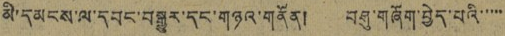མི་དམངས་ལ་དབང་བསྒྱུར་དང་གཉའ་གནོན། བཤུ་གཞོག་བྱེད་པའི་་་་་
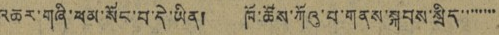འཆར་གཞི་ལམ་སོང་བ་དེ་ཡིན། ཁོ་ཚོས་ཀོའུ་པ་གནས་སྐབས་སྲིད་་་་་་་་
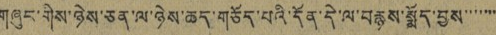གཞུང་གིས་ཉེས་ཅན་ལ་ཉེས་ཆད་གཅོད་པའི་དོན་དེ་ལ་བརྙས་སྨོད་བྱས་་་་་་་
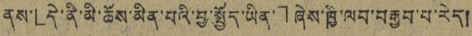ནས་「དེ་ནི་མི་ཆོས་མིན་པའི་བྱ་སྤྱོད་ཡིན་」ཞེས་ཁྱི་ལབ་བརྒྱབ་བ་རེད།
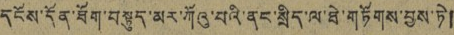དངོས་དོན་ཐོག་བསྟུད་མར་ཀོའུ་པའི་ནང་སྲིད་ལ་ཐེ་གཏོགས་བྱས་ཏེ།
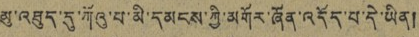མུ་འཐུད་དུ་ཀོའུ་པ་མི་དམངས་ཀྱི་མགོར་ཞོན་འདོད་པ་དེ་ཡིན།
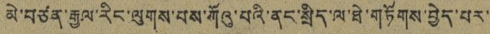མེ་བཙན་རྒྱལ་རིང་ལུགས་པས་ཀོའུ་པའི་ནང་སྲིད་ལ་ཐེ་གཏོགས་བྱེད་པར་
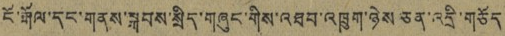ངོ་རྒོལ་དང་གནས་སྐབས་སྲིད་གཞུང་གིས་འཐབ་འཁྲུག་ཉེས ཅན་འདྲི་གཅོད
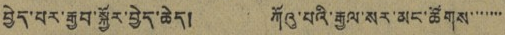བྱེད་པར་རྒྱབ་སྐྱོར་བྱེད་ཆེད། ཀོའུ་པའི་རྒྱལ་སར་མང་ཚོགས་་་་་་་
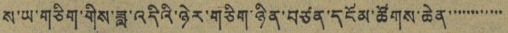ས་ཡ་གཅིག་གིས་ཟླ་འདིའི་ཉེར་གཅིག་ཉིན་བཙན་དངོམ་ཚོགས་ཆེན་་་་་་་་་་་་
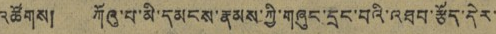འཚོགས། ཀོའུ་པ་མི་དམངས་རྣམས་ཀྱི་གཞུང་དྲང་པའི་འཐབ་རྩོད་དེར་
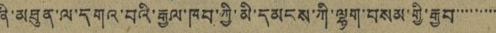ཞི་མཐུན་ལ་དགའ་བའི་རྒྱལ་ཁབ་ཀྱི་མི་དམངས་ཀྱི་ལྷག་བསམ་གྱི་རྒྱབ་་་་་་་་་
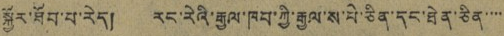སྐྱོར་ཐོབ་པ་རེད། རང་རེའི་རྒྱལ་ཁབ་ཀྱི་རྒྱལ་ས་པེ་ཅིན་དང་ཐེན་ཅིན་་་་
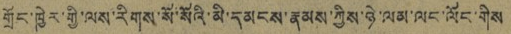གྲོང་ཁྱེར་གྱི་ལས་རིགས་སོ་སོའི་མི་དམངས་རྣམས་ཀྱིས་ཉེ་ལམ་ལང་ལོང་གིས
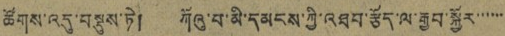ཚོགས་འདུ་བསྡུས་ཏེ། ཀོའུ་པ་མི་དམངས་ཀྱི་འཐབ་རྩོད་ལ་རྒྱབ་སྐྱོར་་་་་་་
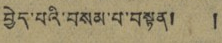བྱེད་པའི་བསམ་པ་བསྟན། །
